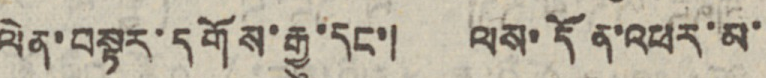ལེན་བསྟར་དགོས་རྒྱུ་དང་། ལས་དོན་འཕར་མ་
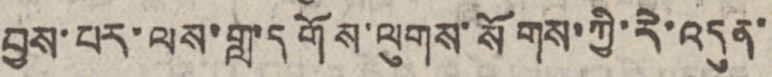བྱས་པར་ལས་གླ་དགོས་ལུགས་སོགས་ཀྱི་རེ་འདུན་
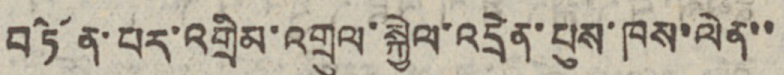བཏོན་པར་འགྲིམ་འགྲུལ་སྐྱེལ་འདྲེན་པུས་ཁས་ལེན་་
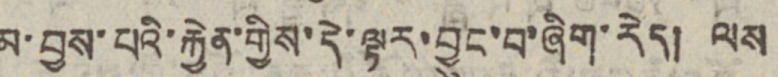མ་བྱས་པའི་རྐྱེན་གྱིས་དེ་ལྟར་བྱུང་བ་ཞིག་རེད། ལས
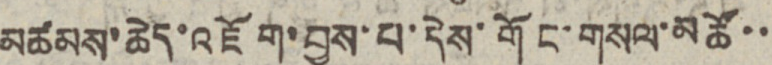མཚམས་ཆེད་འཇོག་བྱས་པ་དེས་གོང་གསལ་མཚོ་་
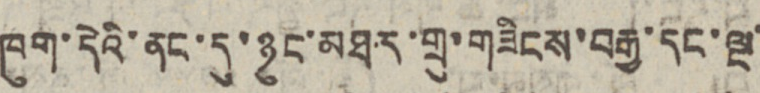ཁུག་དེའི་ནང་དུ་ཉུང་མཐར་གྲུ་གཟིངས་བརྒྱ་དང་ལྔ་
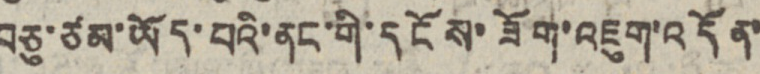བཅུ་ཙམ་ཡོད་པའི་ནང་གི་དངོས་ཟོག་འཇུག་འདོན་
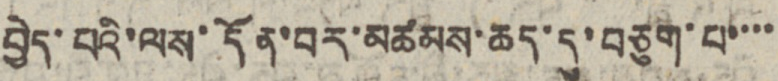བྱེད་པའི་ལས་དོན་བར་མཚམས་ཆད་དུ་བཅུག་པ་་་་
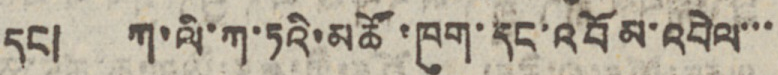དང། ཀ་ལི་ཀ་ཏའི་མཚོ་ཁུག་དང་འབོམ་འབེལ་་་
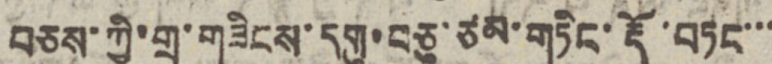བཅས་ཀྱི་གྲུ་གཟིངས་དགུ་བཅུ་ཙམ་གཏིང་རྡོ་བཏང་་་
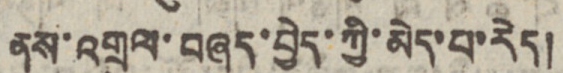ནས་འགྲུལ་བཞུད་བྱེད་ཀྱི་མེད་པ་རེད།
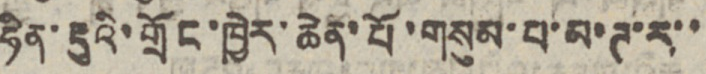ཧིན་རྡུའི་གྲོང་ཁྱེར་ཆེན་པོ་གསུམ་པ་མ་ཊ་ར་་
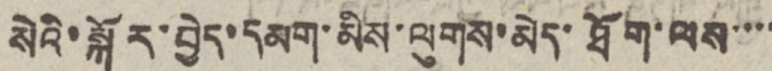སེའི་སྐོར་བྱེད་དམག་མིས་ལུགས་མེད་ཐོག་ལས་་་་
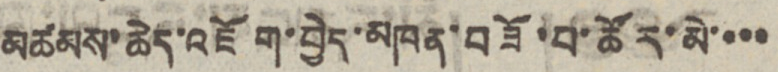མཚམས་ཆེད་འཇོག་བྱེད་མཁན་བཟོ་བ་ཚོར་མེ་་་་
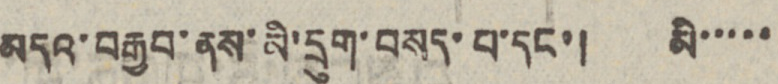མདའ་བརྒྱབ་ནས་མི་དྲུག་བསད་པ་དང་། མི་་་་་
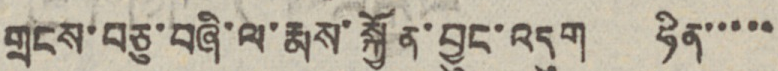གྲངས་བཅུ་བཞི་ལ་རྨས་སྐྱོན་བྱུང་འདུག ཧིན་་་་་
